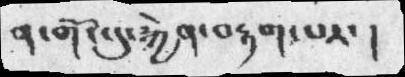ན་གོང་དུ་རྐྱེན་བརྟག་པར་ །
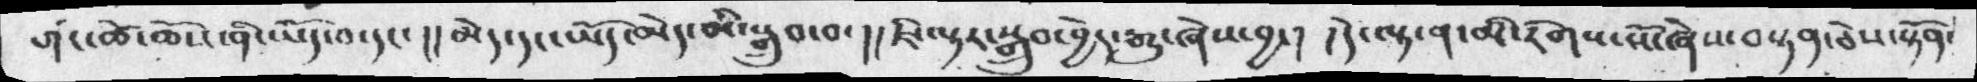གང་ཚེ་ཆོས་ནི་ཡོད་བ་དང་ །། མེད་དང་ཡོད་མེད་མི་སྒྲུབ་བ་།།  ཇི་ལྟར་སྒྲུབ་བྱེད་རྒྱུ་ཞེས་བྱ་།  །དེ་ལྟ་ན་མི་རིགས་སོ་ཞེས་བསྟན་ཅེས་སྟོན་
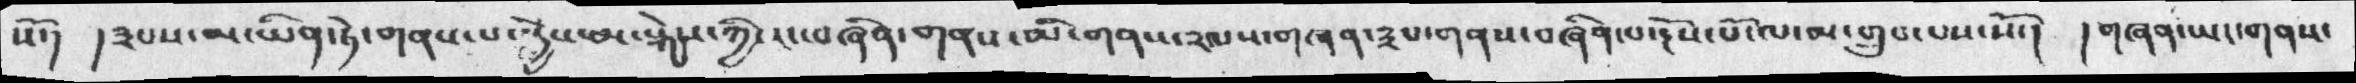སོ་།  །༣པས་མ་ཡིན་ཏེ་གནས་པ་སྐྱེས་མ་སྐྱེས་ཀྱི་རང་བཞིན་གནས་མི་གནས་༢ལས་གཞན་༣པ་གནས་བཞིན་པ་རྔོས་པོ་ལ་མ་གྲུབ་པས་སོ་།  ། གཞན་ཡང་གནས་
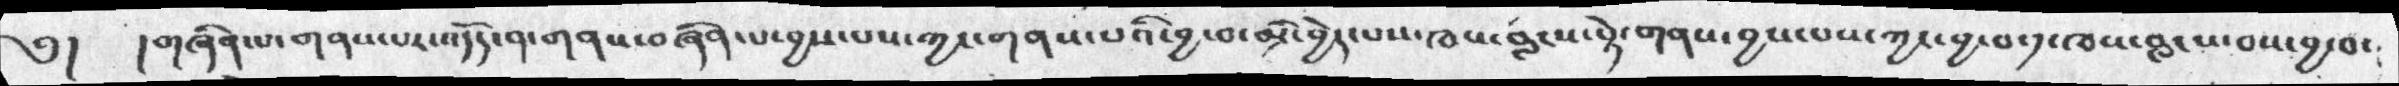༄།  །གཞིན་པ་གནས་པར་འདོད་ན་གནས་བཞིན་པ་བྱས་པས་ཀྱང་གནས་པའི་བྱ་བ་མི་བྱེད་པས་ཁས་བླངས་སྟེ་གནས་བྱས་པས་ཀྱང་བྱ་བ་༡་ཁས་བླངས་བས་བྱ་བ་
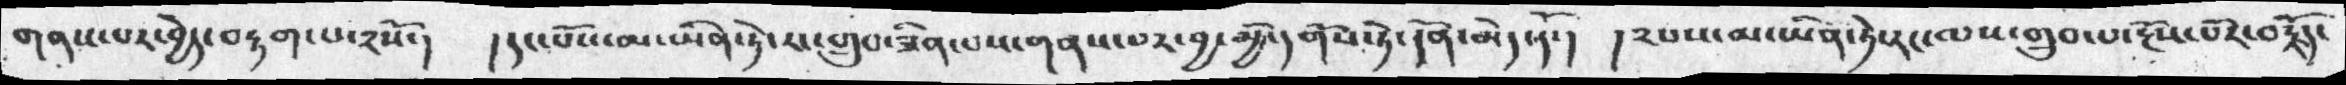གནས་པར་བྱེད་བརྟག་པ་༢སོ་།  །དང་པོས་མ་ཡིན་ཏེ་རང་གྲུབ་ཟིན་པས་གནས་པར་བྱ་མྱི་དགོས་ཏེ་དོན་མེད་དོ་།  །༢པས་མ་ཡིན་ཏེ་རང་ལས་གྲུབ་པ་རྔོས་པོར་བརྗོད་
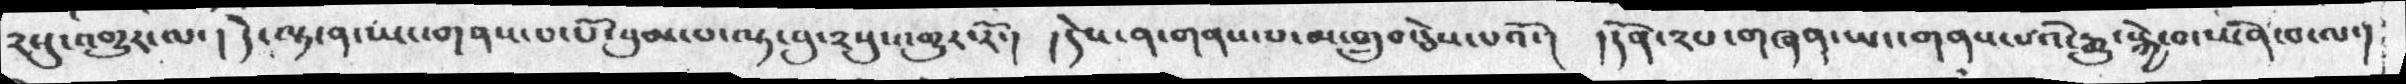༢སུ་འགྱུར་པ་།  དེ་ལྟ་ན་ཡང་གནས་པ་པོ་བུམ་པ་ལྟ་བུ་༢སུ་འགྱུར་རོ་།  །དེས་ན་གནས་པ་མ་གྲུབ་ཅེས་པའོ་།  །དོན་༢པ་གཞན་ཡང་གནས་པའི་རྒྱུ་སྐྱེ་བ་ཡིན་པ་ལ་།
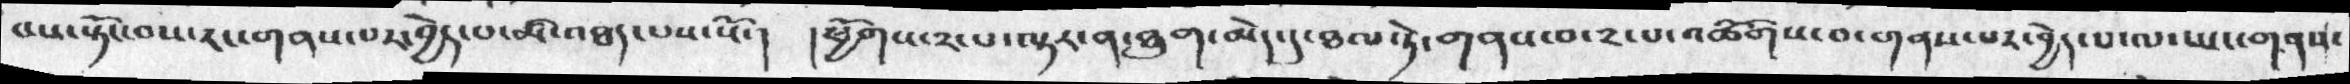པས་སྟོང་བས་རང་གནས་པར་བྱེད་པ་མི་འཐད་པས་སོ་།  །ཕྱོགས་༢་པ་ལྟར་ན་ཐུག་མེད་དུ་ཐལ་ཏེ་གནས་བ་༢་པ་འཚོགས་བ་གནས་པར་བྱེད་པ་ལ་ཡང་གནས་
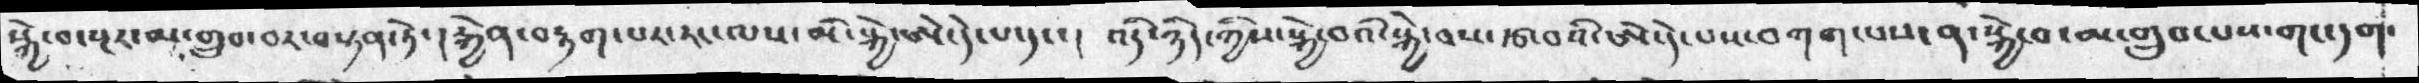སྐྱེ་བ་སྔར་མ་གྲུབ་བར་བསྟན་ཏེ་།རྐྱེན་བརྟག་པར་རང་ལས་མི་སྐྱེ་ཨེ་དེ་པ་དང་།  འདི་ཉིད་ཀྱིས་སྐྱེ་བའི་སྐྱེ་བས་རྩ་བའི་ཨེ་དེ་པས་བཀག་པས་ན་སྐྱེ་བ་མ་གྲུབ་པས་གང་དག
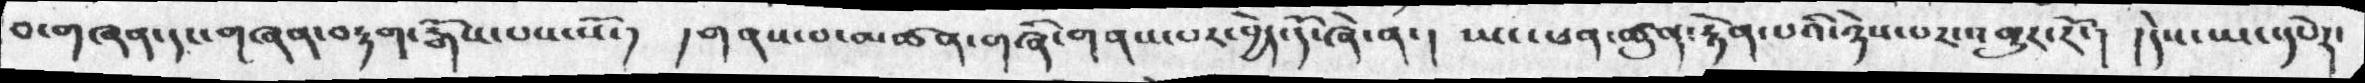བ་གཞན་དང་གཞན་བརྟག་རྒོས་པས་སོ་།  །གནས་བ་མཚན་གཞི་གནས་པར་བྱེད་དོ་ཞེ་ན་།  ཡང་ཕན་ཚུན་རྟེན་པའི་ཉེས་པར་འགྱུར་རོ་། །དེས་ཡང་དཔེར་
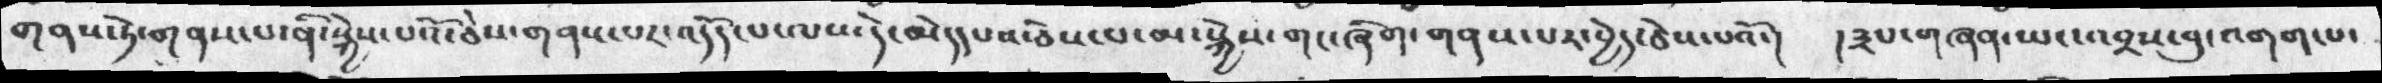གནས་ཏེ་གནས་པ་ནི་སྐྱེས་པའོ་ཅེས་གནས་པར་འདོད་པ་ལས་དེ་མེདདཔས་ཅེས་པ་མ་སྐྱེས་གང་ཞིག་གནས་པར་བྱེད་ཅེས་པའོ་།  །༣པ་གཞན་ཡང་འབྲས་བུ་འགག་པ་
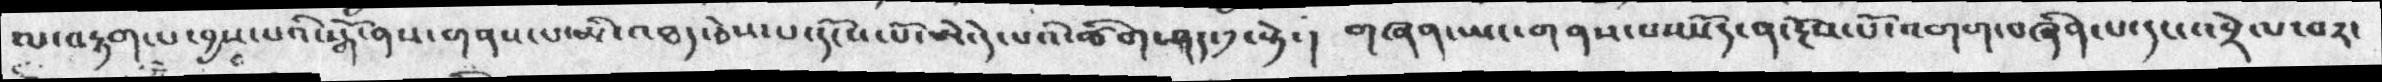ལ་བརྟག་པ་བྱས་པའི་སྒོ་ནས་གནས་པའ་མི་འཐད་ཅེས་པ་དངོས་པོ་ཨེ་དེ་པའི་ཚིག་ཤད་༡་སྟེ་།   གཞན་ཡང་གནས་པ་ཡོད་ན་རྔོས་པོ་འགག་བཞིན་པ་དང་འབྲེལ་བར་
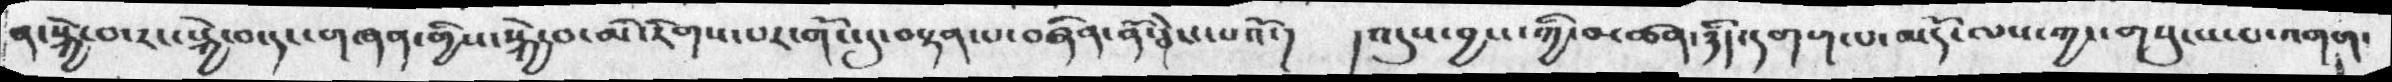ན་སྐྱེ་བ་རང་སྐྱེ་བ་དང་གཞན་གྱིས་སྐྱེ་བ་མི་རིགས་པར་གོང་དུ་བསྟན་པ་བཞིན་ནོ་དྭེས་པའོ་།   །འདུས་བྱས་ཀྱི་མཚན་ཉིད་དགག་པ་མདོ་ལས་ཀྱང་གསུངས་པ་འགག་
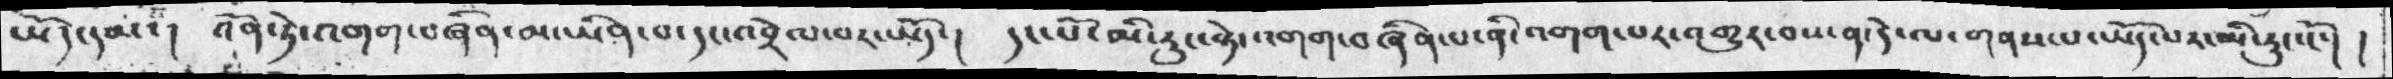ཡོད་དམ་།  འོན་ཏེ་འགག་བཞིན་མ་ཡིན་པ་དང་འབྲེལ་བར་ཡོད་།  དང་པོ་མི་རུང་སྟེ་འགག་བཞིན་པ་ནི་འགག་པར་འགྱུར་བས་ན་དེ་ལ་གནས་པ་ཡོད་པར་མི་རུང་ངོ་།  །
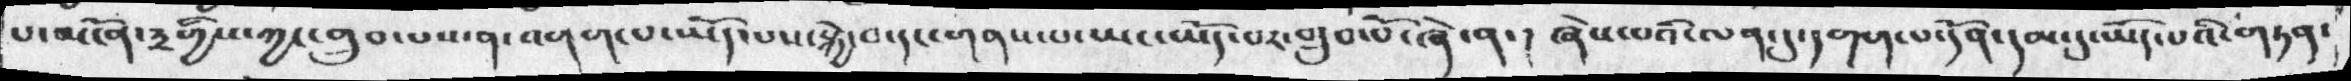པ་མངོན་༣གྱིས་གྲུབ་པས་ན་བགག་པ་ཡོད་པས་སྐྱེ་བ་དང་གནས་པ་ཡང་ཡོད་པར་གྲུབ་བོ་ཞེ་ན་།  ཞེས་པའི་ལན་དུ་དགག་པ་དོན་དམ་དུ་ཡོད་པའི་གཏན་
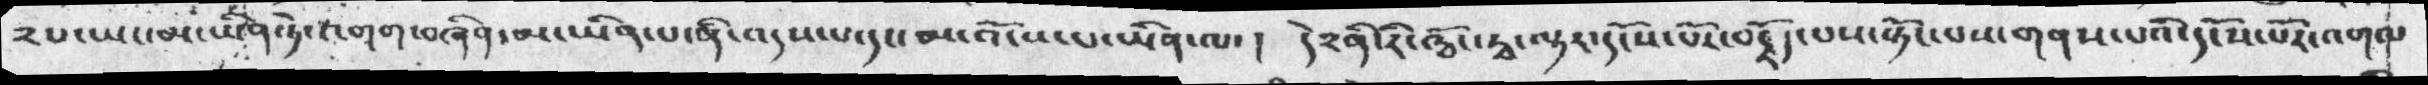༢པ་ཡང་མ་ཡིན་ཏེ་འགག་བཞིན་མ་ཡིན་པ་ནི་འདས་པ་དང་མ་འོངས་པ་ཡིན་ལ་།  ད༢ནི་རི་ཝོང་རྭ་ལྟར་དངོས་པར་བརྗོད་པས་སྟོང་པས་གནས་པའི་དངོས་པོར་འགལ
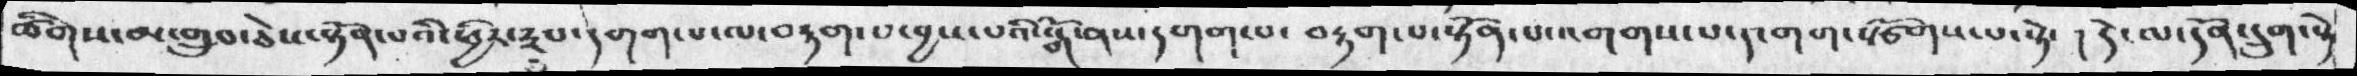ཚིགས་མ་གྲུབ་ཅེས་སྟོན་པའི་ཕྱིར་༣པ་དགག་པ་ལ་བརྟག་པ་བྱས་པའི་སྒོ་ནས་དགག་པ་བརྟག་སྟོན་པ་འགགས་པ་དང་གག་སྩོགས་པ་སྟེ་ ། དེ་ལ་དོན་དྲུག་སྟེ
